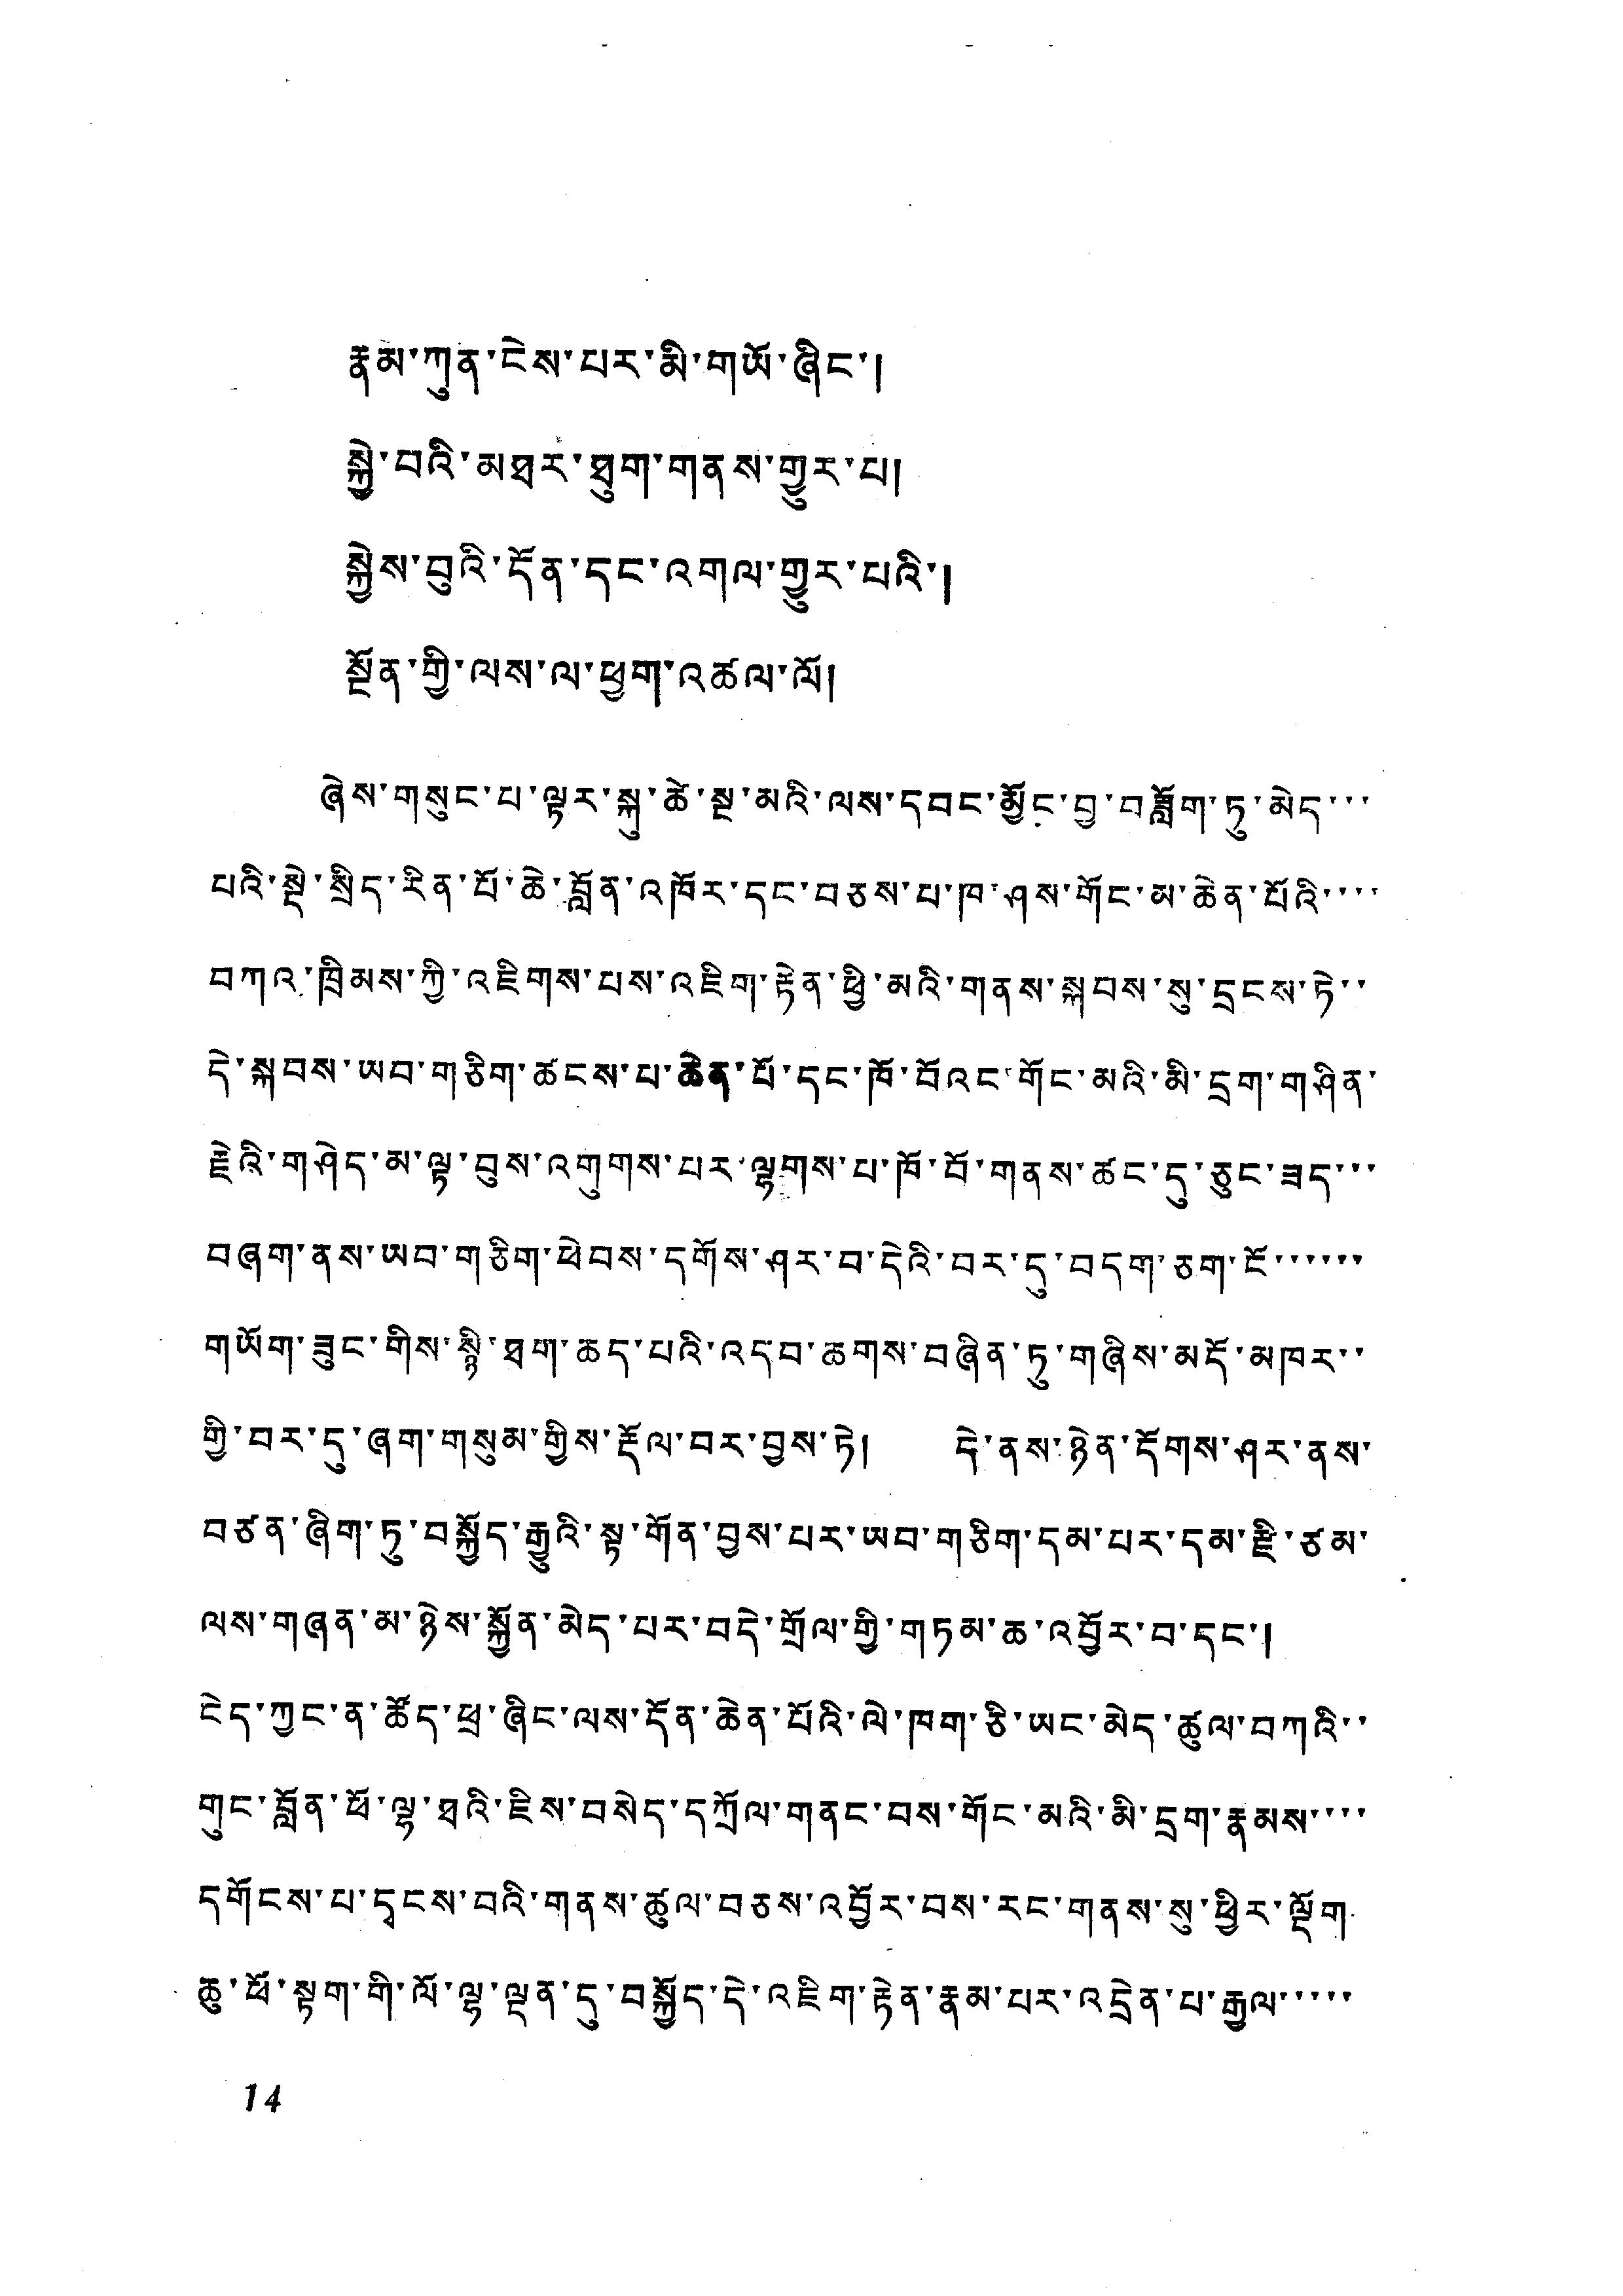རྣམ་ཀུན་ངེས་པར་མི་གཡོ་ཞིང་།
སྐྱི་བའི་མཐར་ཐུག་གནས་གྱུར་པ།
སྐྱེས་བུའི་དོན་དང་འགལ་གྱུར་པའི་།
སྔོན་གྱི་ལས་ལ་ཕྱག་འཚལ་ལོ།
ཞེས་གསུང་པ་ལྟར་སྐུ་ཚེ་སྔ་མའི་ལས་དབང་མྱོང་བུ་བཟློག་ཏུ་མེད་་་
པའི་སྡེ་སྲིད་རིན་པོ་ཆེ་བློན་འཁོར་དང་བཅས་པ་ཁ་ཤས་གོང་མ་ཆེན་པོའི་་་་
བཀའ་ཁྲིམས་ཀྱི་འཇིགས་པས་འཇིག་རྟེན་ཕྱི་མའི་གནས་སྐབས་སུ་དྲངས་ཏེ་་
དེ་སྐབས་ཡབ་གཅིག་ཚངས་པ་ཆེན་པོ་དང་ཁོ་བོའང་གོང་མའི་མི་དྲག་གཤིན་
རྗེའི་གཤེད་མ་ལྟ་བུས་འགུགས་པར་ལྷགས་པ་ཁོ་བོ་གནས་ཚང་དུ་ཅུང་ཟད་་་
བཞག་ནས་ཡབ་གཅིག་ཕེབས་དགོས་ཤར་བ་དེའི་བར་དུ་བདག་ཅག་ངོ་་་་་་
གཡོག་ཟུང་གིས་སྙི་ཐག་ཆད་པའི་འདབ་ཆགས་བཞིན་ཏུ་གཞིས་མདོ་མཁར་་
གྱི་བར་དུ་ཞག་གསུམ་གྱིས་རྡོལ་བར་བྱས་ཏེ། དེ་ནས་ཉེན་དོགས་ཤར་ནས་་
བཙན་ཞིག་ཏུ་བསྐྱོད་རྒྱུའི་སྟ་གོན་བྱས་པར་ཡབ་གཅིག་དམ་པར་དམ་རི་ཙམ་
ལས་གཞན་མ་ཉེས་སྐྱོན་མེད་པར་བདེ་གྲོལ་གྱི་གཏམ་ཆ་འབྱོར་བ་དང་།
ངེད་ཀྱང་ན་ཚོད་ཕྲ་ཞིང་ལས་དོན་ཆེན་པོའི་ལེ་ཁག་ཅི་ཡང་མེད་ཚུལ་བཀའི་་
གུང་བློན་ཕོ་ལྷ་ཐའི་ཇིས་བསེད་དཀྲོལ་གནང་བས་གོང་མའི་མི་དྲག་རྣམས་་་་
དགོངས་པ་དྭངས་བའི་གནས་ཚུལ་བཅས་འབྱོར་བས་རང་གནས་སུ་ཕྱིར་ལྡོག
ཆུ་ཕོ་སྟག་གི་ལོ་ལྷ་ལྡན་དུ་བསྐྱོད་དེ་འཇིག་རྟེན་རྣམ་པར་འདྲེན་པ་རྒྱལ་་་་་
14
